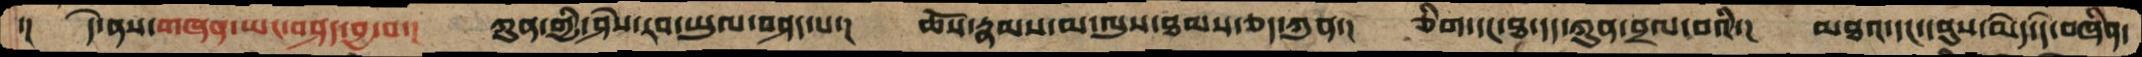་།  དེ་ནས་གཞན་ཡང་བཤད་བྱ་བ་།  ཀུན་གྱི་ཤེས་རབ་ཡུལ་བཤད་པ་།   ཆོས་རྣམས་མ་ལུས་ཐམས་ཅད་ཀུན་།  ཅིག་དང་ཐ་དད་ཀུན་བྲལ་བའི་།  མཐའ་དང་དབུས་མེད་དེ་བཞིན་
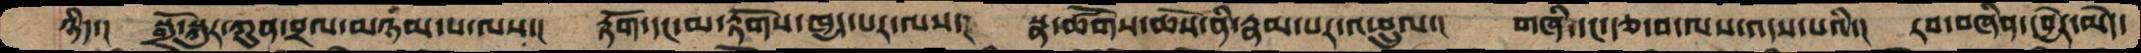ཉིད་།  སྒྲོ་སྐུར་ཀུན་བྲལ་མཉམ་པ་ལས་།  རྟོག་དང་མ་རྟོགས་ཁྱད་པར་ལས་།  སྣ་ཚོགས་ཆོས་ནི་རྣམ་པར་འཕྲུལ་།   གཞི་དང་རྩ་བ་ལས་འདས་པའི་།  རབ་བཞིན་དབྱེར་མེད་
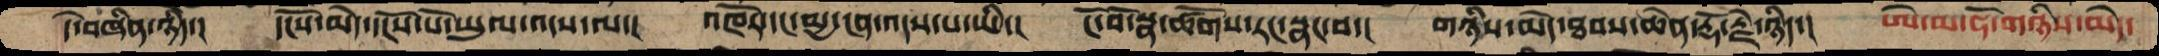དེ་བཞིན་ཉིད་།   དངོས་མེད་དངོས་པོ་ཡུལ་འདས་ལ་།  འཁོར་དང་མྱ་ངན་འདས་པ་ཡི་།  ངོ་བོ་སྣ་ཚོགས་རང་སྣང་བ་།  གཉིས་མེད་ཐབས་ཆེན་རྡོ་རྗེ་ཉིད་།   ཨེ་མ་ཧོ་གཉིས་མེད་
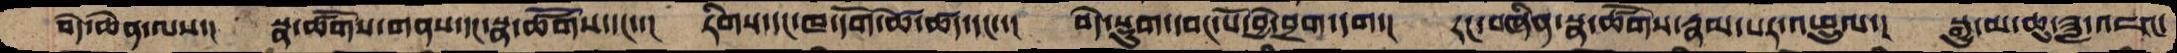བདེ་ཆེན་ལས་།  སྣ་ཚོགས་གནས་དང་སྣ་ཚོགས་དང་་།   རིགས་དང་ཁ་དོག་ཚེ་ཚད་དང་་།  བདེ་སྡུག་དབང་པོ་བྱེད་བྲག་དག་།  རང་བཞིན་སྣ་ཚོགས་རྣམ་པར་འཕྲུལ་།  སྒྱུ་མ་ཆུ་ཟླ་འཇའ་
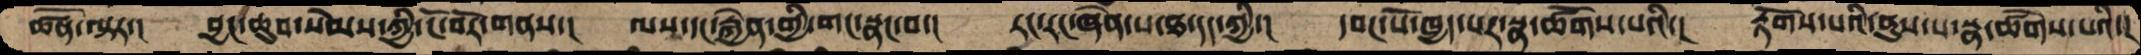ཚོན་ལྟར་།  བྱང་ཆུབ་སེམས་ཀྱི་ངོ་བོར་གནས་།  ལས་དང་རྐྱེན་གྱི་གང་སྣང་བ་།  རང་རང་ཞེན་པ་ཐ་དད་ཀྱི་།  དབང་པོ་ཁྱད་པར་སྣ་ཚོགས་པའི་།   རྟོགས་པའི་ནུས་པ་སྣ་ཚོགས་པའི་།
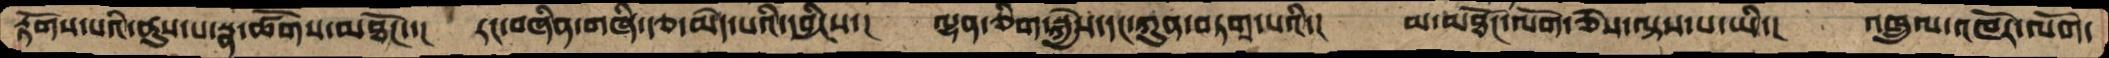རྟོགས་པའི་ནུས་པ་སྣ་ཚོགས་མཐོང་་། རང་བཞིན་གཞི་རྩ་མེད་པའི་དབྱིངས་། ལྷན་ཅིག་སྐྱེས་དང་ཀུན་བཏགས་པའི་། མ་མཐོང་ལོག་ཅེས་ལྟས་པ་ཡི་།  འཁྲུལ་འཁོར་ལོག་
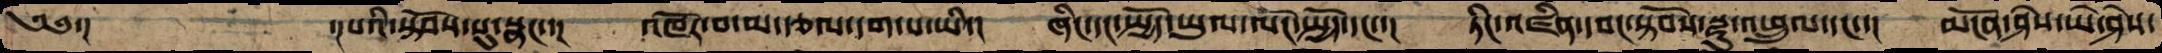༄༅་།         ་།པའི་སྟོབས་སུ་སྣང་་།  འཁོར་བ་མ་རྩལ་དག་པ་ཡི་།  ཞིང་དང་སྤྱོད་ཡུལ་ལོང་སྤྱོད་དང་་།  ཏིང་འཛིན་དབང་སྟོབས་སྫུ་འཕྲུལ་དང་་།   མངོན་ཤེས་ཡེ་ཤེས་
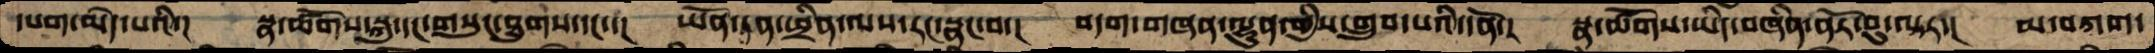དཔག་མེད་པའི་།  སྣ་ཚོགས་སྐུ་དང་གསུང་ཐུགས་དང་་།  ཡོན་ཏན་ཕྲིན་ལས་རང་སྣང་བ་།  བདག་གཞན་ལྷུན་གྱིས་གྲུབ་པའི་དོན་།   སྣ་ཚོགས་ཡིད་བཞིན་ནོར་བུ་ལྟར་།   མ་བཀག་
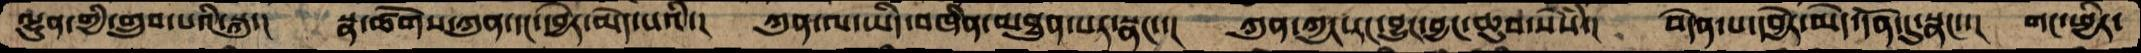ལྷུན་གྱི་གྲུབ་པའི་སྐུ་།   སྣ་ཚོགས་ཀུན་དང་དབྱེར་མེད་པའི་།  ཀུན་ལ་ཡིད་བཞིན་མཐུན་པར་སྣང་་།  ཀུན་ཀྱང་རང་བྱུང་བྱང་ཆུབ་སེསཾ་།  བདེན་པ་དབྱེར་མེད་དོན་དུ་སྣང་་།  གང་ཕྱིར་
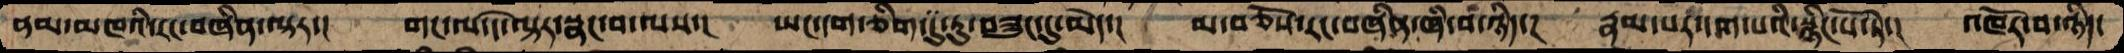ནམ་མཁའི་རང་བཞིན་ལྟར་།  གང་ལ་དེ་ལྟར་སྣང་བ་ལས་། ཡང་དག་ཅིག་དུ་ཏུ་བཟུང་དུ་མེད་།  མ་བཅོས་རང་བཞིན་ཞི་བ་ཉིད་། རྣམ་པར་དག་པའི་སྙིང་པོ་ཏེ་། འཁོར་བ་ཉིད་
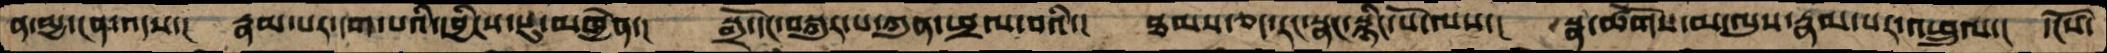ན་མྱ་ངན་འདས་།  རྣམ་པར་དག་པའི་དབྱིངས་སུ་མཁྱེན་།  སྒྲོ་དང་བསྐུར་པ་ཀུན་ཕྲལ་བའི་།  ཐམས་ཅད་རང་སྣང་སྙིང་པོ་ལས་།  སྣ་ཚོགས་མ་ལུས་རྣམ་པར་འཕྲུལ་།  དངོས་
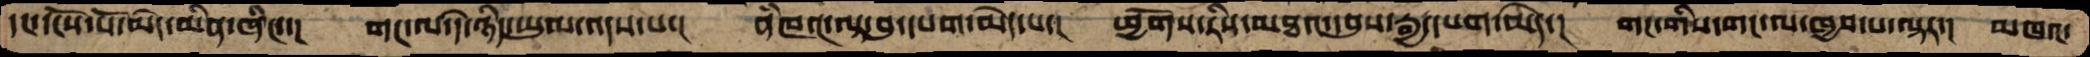དང་དངོས་པོ་མེད་མིན་ཞིང་་།  གང་ལ་དེ་ཉིད་ཡུལ་འདས་པ་།  ནཾཁའ་ལྟ་བུ་དཔག་མེད་པ་།  ཕྱོགས་རིས་མཐའ་དབུས་རྒྱ་དཔག་མེད་།  གང་གིས་གང་ལ་ཁྱབ་པ་ལྟར་།  མཁའ་
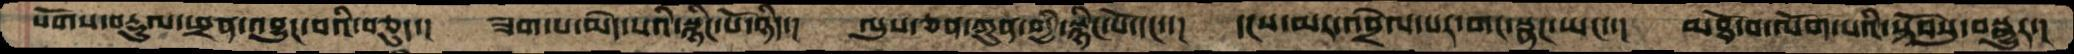སོགས་བརྡུལ་ཕྲན་འབྱུང་བའི་བཅུད་།  ཟག་པ་མེད་པའི་སྙིང་པོ་ཉིད་།  ལུས་ཅན་ཀུན་གྱི་སྙིང་པོ་དང་་།  དངས་མར་འབྲེལ་པར་གང་སྣང་ཡང་་།  མཐོ་བ་ལོག་པའི་སྟོབསུ་བསྒྱུར་།
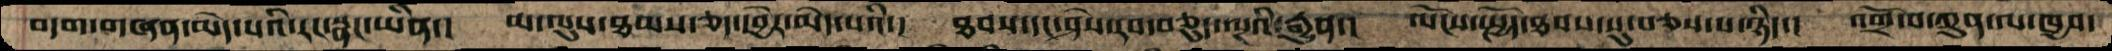བདག་གཞན་མེད་པའི་རང་སྣང་ཡིན་།  མ་ལུས་ཐམས་ཅད་དབྱེར་མེད་པའི་།  ཐབས་དང་ཤེས་རབ་བཅུད་ལྔའི་རྒྱུན་།  ལོངས་སྤྱོད་ཐབས་སུ་བཅས་པ་ཉིད་།  འགྲོ་བ་ཀུན་ལ་ཁྱབ་
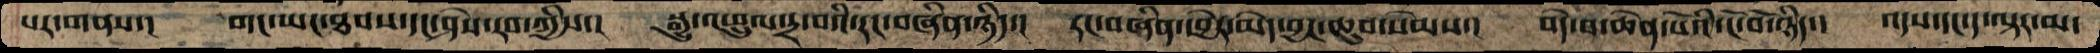པར་གནས་།  གང་ཡང་ཐབས་དང་ཤེས་རབ་ཀྱིས་།  སྒྱུ་འཕྲུལ་དྲ་བའི་རང་བཞིན་ཉིད་།  རང་བཞིན་དབྱེར་མེད་བྱང་ཆུབ་སེམས་།  བདེ་བ་ཆེན་པོའི་ངོ་བོ་ཉིད་།  འདས་དང་ད་ལྟར་མ་
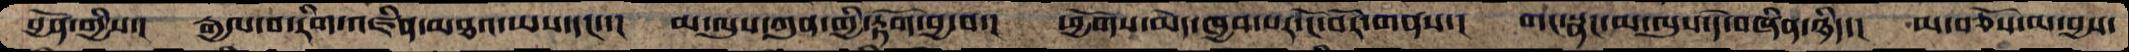བྱོན་གྱིས་།  རྒྱལ་བ་རིག་འཛིན་མཐའ་ཡས་དང་་།  མ་ལུས་ཀུན་གྱི་རྟོག་བྱ་བ་།  ཕྱོགས་མེད་ཁྱབ་པར་ངོ་བོར་གནས་།  གང་སྣང་མ་ལུས་དེ་བཞིན་ཉིད་།  མ་བཅོས་མ་བྱས་
